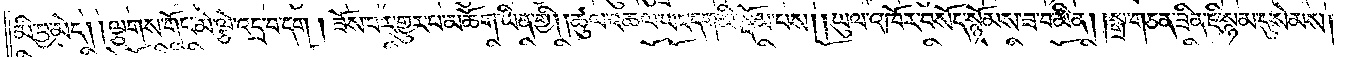མི་བྱ་མེད། །ལྕགས་གོང་མེ་ལྕེ་འདྲ་བ་དག །ཟོས་པར་གྱུར་པ་མཆོག་ཡིན་གྱི། །ཚུལ་འཆལ་ཡང་དག་མི་སྡོམ་པས། །ཡུལ་འཁོར་བསོད་སྙོམས་ཟ་བ་མིན། །སྒྲ་གཅན་ཟིན་ཇི་སྙམ་དུ་སེམས།
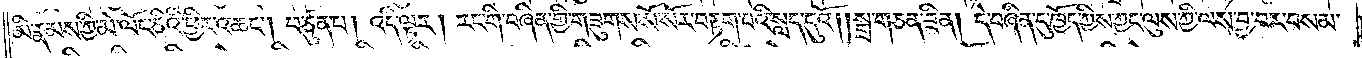མི་རྣམས་ཀྱི་མེ་ལོང་ཅིའི་ཕྱིར་འཆང༌། བཙུན་པ། འདི་ལྟར། རང་གི་བཞིན་གྱི་གཟུགས་སོ་སོར་བརྟག་པའི་སླད་དུའོ། །སྒྲ་གཅན་ཟིན། དེ་བཞིན་དུ་ཁྱོད་ཀྱིས་ཀྱང་ལུས་ཀྱི་ལས་བྱ་བར་བསམ་
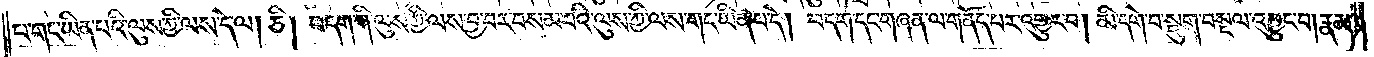པ་གང་ཡིན་པའི་ལུས་ཀྱི་ལས་དེ་ལ། ཅི། བདག་གི་ལུས་ཀྱི་ལས་བྱ་བར་བསམ་པའི་ལུས་ཀྱི་ལས་གང་ཡིན་པ་དེ། བདག་དང་གཞན་ལ་གནོད་པར་འགྱུར་བ། མི་དགེ་བ་སྡུག་བསྔལ་འབྱུང་བ། རྣམ་
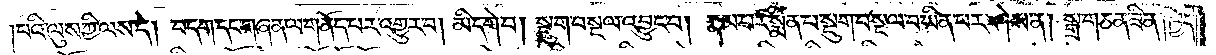པའི་ལུས་ཀྱི་ལས་དེ། བདག་དང་གཞན་ལ་གནོད་པར་འགྱུར་བ། མི་དགེ་བ། སྡུག་བསྔལ་འབྱུང་བ། རྣམ་པར་སྨིན་པ་སྡུག་བསྔལ་བ་ཡིན་པར་ཤེས་ན། སྒྲ་གཅན་ཟིན། ཁྱོད་
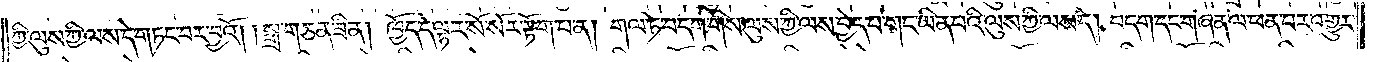ཀྱི་ལུས་ཀྱི་ལས་དེ་གཏང་བར་བྱའོ། །སྒྲ་གཅན་ཟིན། ཁྱོད་དེ་ལྟར་སོ་སོར་རྟོག་པ་ན། གལ་ཏེ་བདག་གིས་ལུས་ཀྱི་ལས་བྱེད་པ་གང་ཡིན་པའི་ལུས་ཀྱི་ལས་དེ། བདག་དང་གཞན་ལ་ཕན་པར་འགྱུར་
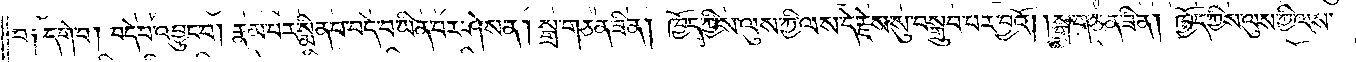བ༑ དགེ་བ། བདེ་བ་འབྱུང་བ། རྣམ་པར་སྨིན་པ་བདེ་བ་ཡིན་པར་ཤེས་ན། སྒྲ་གཅན་ཟིན། ཁྱོད་ཀྱིས་ལུས་ཀྱི་ལས་དེ་རྗེས་སུ་བསྒྲུབ་པར་བྱའོ། །སྒྲ་གཅན་ཟིན། ཁྱོད་ཀྱིས་ལུས་ཀྱི་ལས་
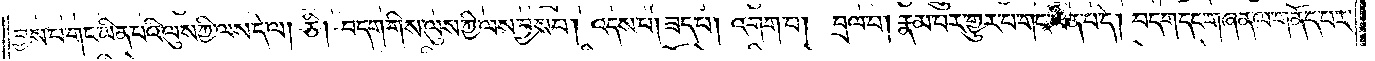བྱས་པ་གང་ཡིན་པའི་ལུས་ཀྱི་ལས་དེ་ལ། ཅི། བདག་གིས་ལུས་ཀྱི་ལས་བྱས་པ། འདས་པ། ཟད་པ། འགག་པ། བྲལ་བ། རྣམ་པར་གྱུར་པ་གང་ཡིན་པ་དེ། བདག་དང་གཞན་ལ་གནོད་པར་
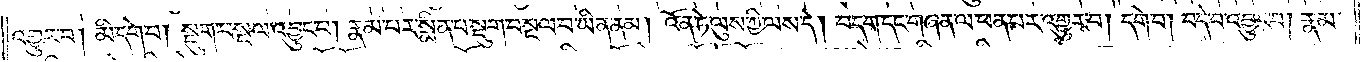འགྱུར་བ། མི་དགེ་བ། སྡུག་བསྔལ་འབྱུང་བ། རྣམ་པར་སྨིན་པ་སྡུག་བསྔལ་བ་ཡིན་ནམ། འོན་ཏེ་ལུས་ཀྱི་ལས་དེ། བདག་དང་གཞན་ལ་ཕན་པར་འགྱུར་བ། དགེ་བ། བདེ་བ་འབྱུང་བ། རྣམ་
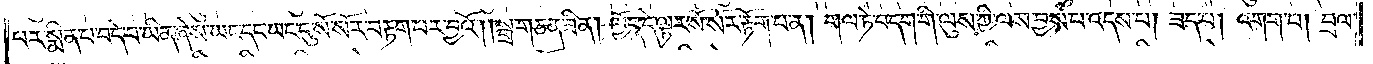པར་སྨིན་པ་བདེ་བ་ཡིན་ཞེས་ཡང་དང་ཡང་དུ་སོ་སོར་བརྟག་པར་བྱའོ། །སྒྲ་གཅན་ཟིན། ཁྱོད་དེ་ལྟར་སོ་སོར་རྟོག་པ་ན། གལ་ཏེ་བདག་གི་ལུས་ཀྱི་ལས་བྱས་པ་འདས་པ། ཟད་པ། འགག་པ། བྲལ་
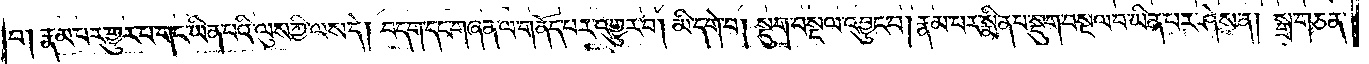བ། རྣམ་པར་གྱུར་པ་གང་ཡིན་པའི་ལུས་ཀྱི་ལས་དེ། བདག་དང་གཞན་ལ་གནོད་པར་འགྱུར་བ། མི་དགེ་བ། སྡུག་བསྔལ་འབྱུང་བ། རྣམ་པར་སྨིན་པ་སྡུག་བསྔལ་བ་ཡིན་པར་ཤེས་ན། སྒྲ་གཅན་
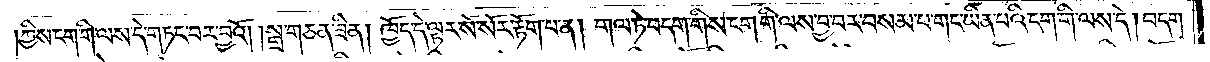ཀྱིས་ངག་གི་ལས་དེ་གཏང་བར་བྱའོ། །སྒྲ་གཅན་ཟིན། ཁྱོད་དེ་ལྟར་སོ་སོར་རྟོག་པ་ན། གལ་ཏེ་བདག་གིས་ངག་གི་ལས་བྱ་བར་བསམ་པ་གང་ཡིན་པའི་ངག་གི་ལས་དེ། བདག་
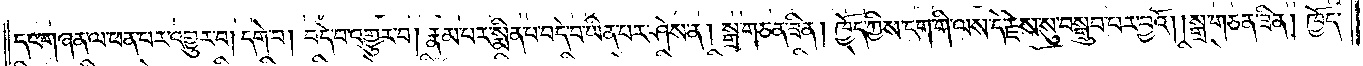དང་གཞན་ལ་ཕན་པར་འགྱུར་བ། དགེ་བ། བདེ་བ་འགྱུར་བ། རྣམ་པར་སྨིན་པ་བདེ་བ་ཡིན་པར་ཤེས་ན། སྒྲ་གཅན་ཟིན། ཁྱོད་ཀྱིས་ངག་གི་ལས་དེ་རྗེས་སུ་བསྒྲུབ་པར་བྱའོ། །སྒྲ་གཅན་ཟིན། ཁྱོད་
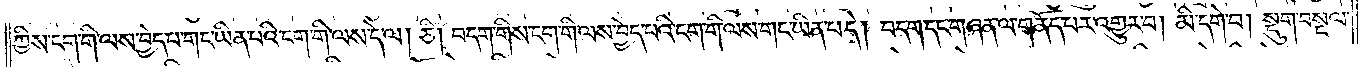ཀྱིས་ངག་གི་ལས་བྱེད་པ་གང་ཡིན་པའི་ངག་གི་ལས་དེ་ལ། ཅི། བདག་གིས་ངག་གི་ལས་བྱེད་པའི་ངག་གི་ལས་གང་ཡིན་པ་དེ། བདག་དང་གཞན་ལ་གནོད་པར་འགྱུར་བ། མི་དགེ་བ། སྡུག་བསྔལ་
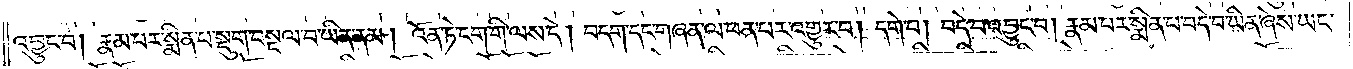འབྱུང་བ། རྣམ་པར་སྨིན་པ་སྡུག་བསྔལ་བ་ཡིན་ནམ། འོན་ཏེ་ངག་གི་ལས་དེ། བདག་དང་གཞན་ལ་ཕན་པར་འགྱུར་བ། དགེ་བ། བདེ་བ་འབྱུང་བ། རྣམ་པར་སྨིན་པ་བདེ་བ་ཡིན་ཞེས་ཡང་
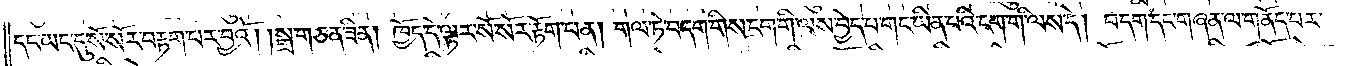དང་ཡང་དུ་སོ་སོར་བརྟག་པར་བྱའོ། །སྒྲ་གཅན་ཟིན། ཁྱོད་དེ་ལྟར་སོ་སོར་རྟོག་པ་ན། གལ་ཏེ་བདག་གིས་ངག་གི་ལས་བྱེད་པ་གང་ཡིན་པའི་ངག་གི་ལས་དེ། བདག་དང་གཞན་ལ་གནོད་པར་
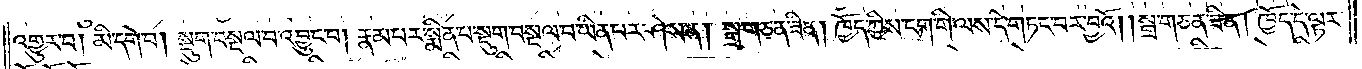འགྱུར་བ། མི་དགེ་བ། སྡུག་བསྔལ་བ་འབྱུང་བ། རྣམ་པར་སྨིན་པ་སྡུག་བསྔལ་བ་ཡིན་པར་ཤེས་ན། སྒྲ་གཅན་ཟིན། ཁྱོད་ཀྱིས་ངག་གི་ལས་དེ་གཏང་བར་བྱའོ། །སྒྲ་གཅན་ཟིན། ཁྱོད་དེ་ལྟར་
